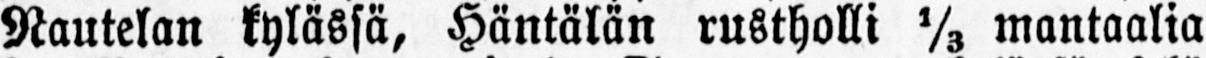Nautelan kylässä, Häntälän rustholli ⅓ mantaalia
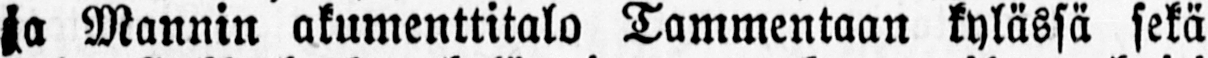ja Mannin akumenttitalo Tammentaan kylässä sekä
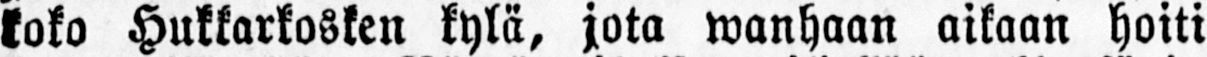koko Hukkarkosken kylä, jota wanhaan aikaan hoiti
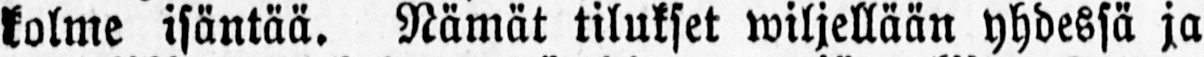kolme isäntää. Nämät tilukset wiljellään yhdessä ja
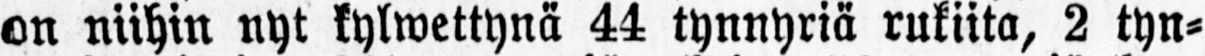on niihin nyt kylwettynä 44 tynnyriä rukiita, 2 tyn-
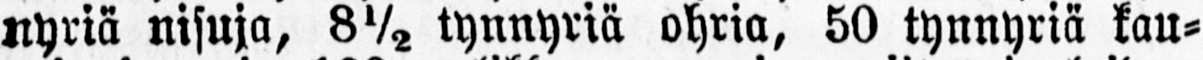nyriä nisuja, 8½ tynnyriä ohria, 50 tynnyriä kau-
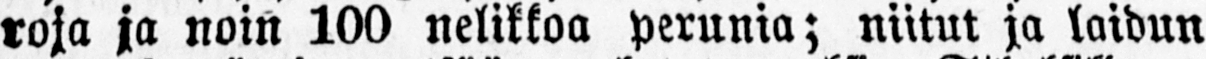roja ja noin 100 nelikkoa perunia; nutut ja laidun
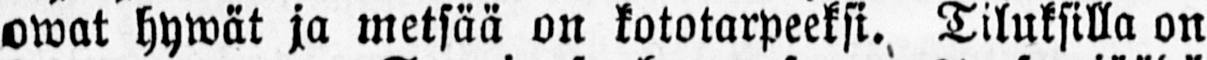owat hywät ja metsää on kototarpeeksi., Tiluksilla on
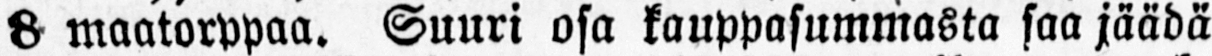8 maatorppaa. Suuri osa kauppasummasta saa jäädä
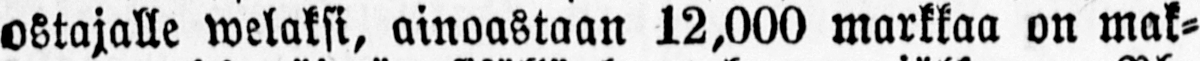ostajalle welaksi, ainoastaan 12,000 markkaa on mak-
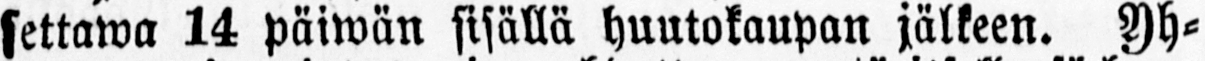settawa 14 päiwän sisällä huutokaupan jälkeen. Yh-
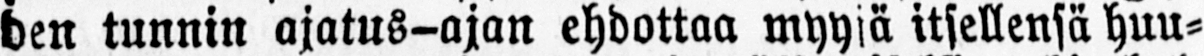den tunnin ajatus-ajan ehdottaa myyjä itsellensä huu-
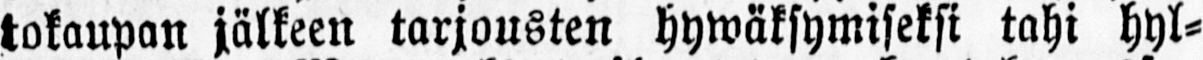tokaupan jälkeen tarjousten hywäksymiseksi tahi hyl-
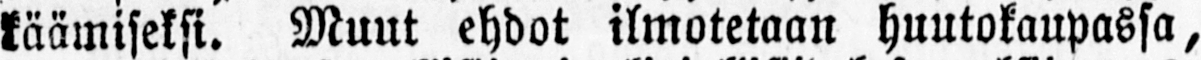käämiseksi. Muut ehdot ilmotetaan huutokaupassa,
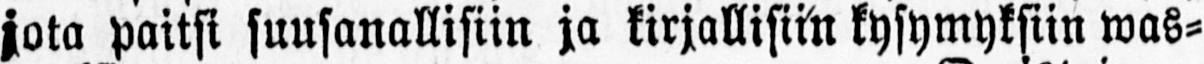jota paitsi suusanallisiin ja kirjallisien kysymyksiin was-
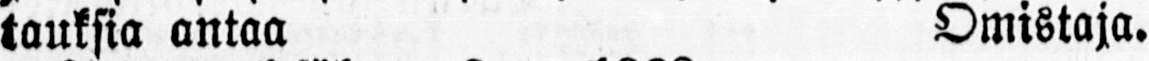tauksia antaa Omistaja.
